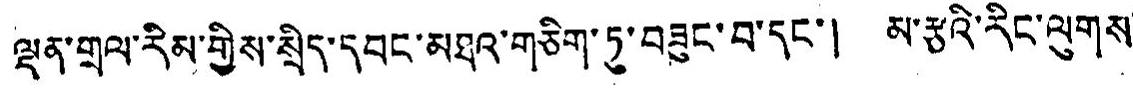ལྡན་གྲལ་རིམ་གྱི་སྲིད་དབང་མཐའ་གཅིག་ཏུ་བཟུང་བ་དང་། མ་རྩའི་རིང་ལུགས་
